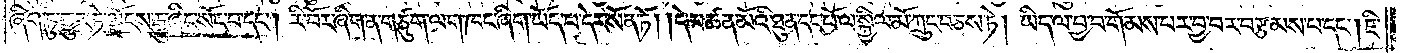ཞིག་ཏུ་གྱུར་ཏེ་ལྗོངས་རྒྱུ་ཞིང་སོང་བ་དང༌། རི་བོར་ཞིག་ན་གཙུག་ལག་ཁང་ཞིག་ཡོད་པ་དེར་སོན་ཏོ། །དེ་མཚན་མོའི་ཐུན་དང་པོ་ལ་སྐྱིལ་མོ་ཀྲུང་བཅས་ཏེ། ཡིད་ལ་བྱ་བ་གོམས་པར་བྱ་བར་བརྩམས་པ་དང༌། ཇི་
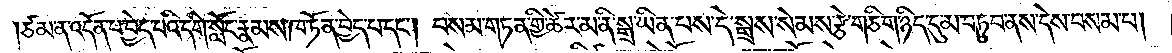ཙམ་ན་འདོན་པ་བྱེད་པའི་དགེ་སློང་རྣམས་ཁ་ཏོན་བྱེད་པ་དང༌། བསམ་གཏན་གྱི་ཚེར་མ་ནི་སྒྲ་ཡིན་པས་དེ་སྒྲས་སེམས་རྩེ་གཅིག་ཉིད་དུ་མ་བཏུབ་ནས་དེས་བསམ་པ།
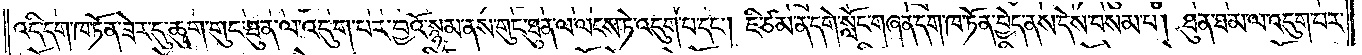འདི་དག་ཁ་ཏོན་ཟེར་དུ་ཆུག་གུང་ཐུན་ལ་འདུག་པར་བྱའོ་སྙམ་ནས་གུང་ཐུན་ལ་ལངས་ཏེ་འདུག་པ་དང༌། ཇི་ཙམ་ན་དགེ་སློང་གཞན་དག་ཁ་ཏོན་བྱེད་ནས་དེས་བསམ་པ། ཐུན་ཐ་མ་ལ་འདུག་པར་
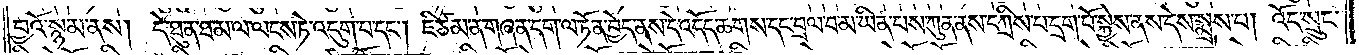བྱའོ་སྙམ་ནས། དེ་ཐུན་ཐ་མ་ལ་ལངས་ཏེ་འདུག་པ་དང༌། ཇི་ཙམ་ན་གཞན་དག་ལ་ཏོན་བྱེད་ནས་དེ་འདོད་ཆགས་དང་བྲལ་བ་མ་ཡིན་པས་ཀུན་ནས་དཀྲིས་པ་དྲག་པོ་སྐྱེས་ནས་དེས་སྨྲས་པ། འོད་སྲུང་
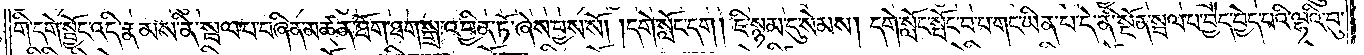གི་དགེ་སྦྱོང་འདི་རྣམས་ནི་སྦལ་པ་བཞིན་མཚན་ཐོག་ཐག་སྒྲ་འབྱིན་ཏོ་ཞེས་བྱས་སོ། །དགེ་སློང་དག། ཇི་སྙམ་དུ་སེམས། དགེ་སློང་སྤོང་བ་པ་གང་ཡིན་པ་དེ་ནི་སྔོན་སྦལ་པ་བྱེད་བྱེད་པའི་ལྷའི་བུ་
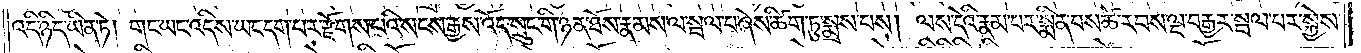འདི་ཉིད་ཡིན་ཏེ། གང་ཡང་འདིས་ཡང་དག་པར་རྫོགས་པའི་སངས་རྒྱས་འོད་སྲུང་གི་ཉན་ཐོས་རྣམས་ལ་སྦལ་པ་ཞེས་ཚིག་ཏུ་སྨྲས་པས། ལས་དེའི་རྣམ་པར་སྨིན་པས་ཚེ་རབས་ལྔ་བརྒྱར་སྦལ་པར་སྐྱེས་
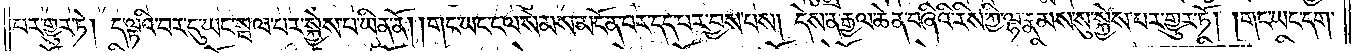པར་གྱུར་ཏེ། ད་ལྟའི་བར་དུ་ཡང་སྦལ་བར་སྐྱེས་པ་ཡིན་ནོ། །གང་ཡང་ང་ལ་སེམས་མངོན་པར་དད་པར་བྱས་པས། དེས་ན་རྒྱལ་ཆེན་བཞིའི་རིས་ཀྱི་ལྷ་རྣམས་སུ་སྐྱེས་པར་གྱུར་ཏོ། །གང་ཡང་དག་
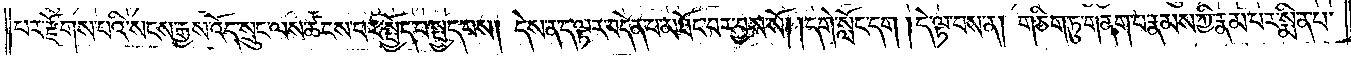པར་རྫོགས་པའི་སངས་རྒྱས་འོད་སྲུང་ལས་ཚངས་པར་སྤྱོད་པ་སྤྱད་པས། དེས་ན་ད་ལྟར་བདེན་པ་མཐོང་བར་བྱས་སོ། །དགེ་སློང་དག །དེ་ལྟ་བས་ན། གཅིག་ཏུ་གནག་པ་རྣམས་ཀྱི་རྣམ་པར་སྨིན་པ་
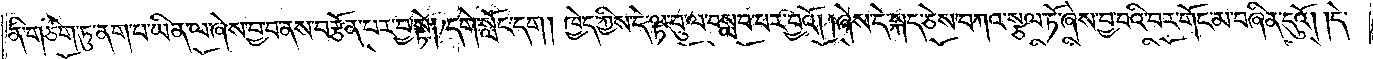ནི་གཅིག་ཏུ་ནག་པ་ཡིན་ལ་ཞེས་བྱ་བ་ནས་བརྩོན་པར་བྱ་སྟེ། དགེ་སློང་དག། ཁྱེད་ཀྱིས་དེ་ལྟ་བུ་ལ་བསླབ་པར་བྱའོ། །ཞེས་དེ་སྐད་ཅེས་བཀའ་སྩལ་ཏོ་ཞེས་བྱ་བའི་བར་གོང་མ་བཞིན་དུའོ། །དེ་
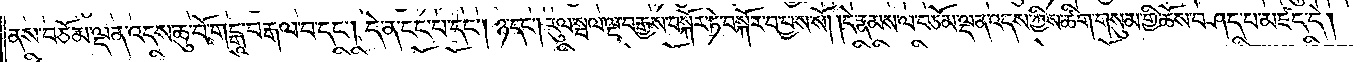ནས་བཅོམ་ལྡན་འདས་ཆུ་བོ་གངྒཱ་བརྒལ་བ་དང༌། དེ་ན་ངང་པ་དང༌། ཉ་དང༌། རུལ་སྦལ་ལྔ་བརྒྱས་བསྐོར་ཏེ་བསྐོར་བ་བྱས་སོ། །དེ་རྣམས་ལ་བཅོམ་ལྡན་འདས་ཀྱིས་ཚིག་གསུམ་གྱི་ཆོས་བཤད་པ་མཛད་དེ།
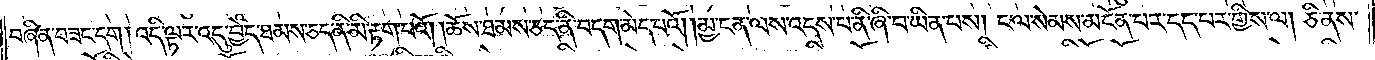བཞིན་བཟང་དག །འདི་ལྟར་འདུ་བྱེད་ཐམས་ཅད་ནི་མི་རྟག་པའོ། །ཆོས་ཐམས་ཅད་ནི་བདག་མེད་པའོ། །མྱ་ངན་ལས་འདས་པ་ནི་ཞི་བ་ཡིན་པས། ང་ལ་སེམས་མངོན་པར་དད་པར་གྱིས་ལ། ཅི་ནས་
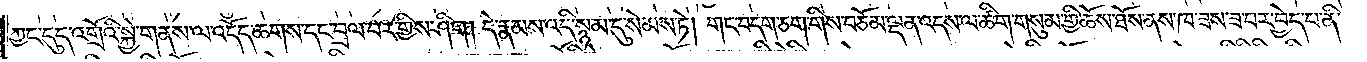ཀྱང་དུད་འགྲོའི་སྐྱེ་གནས་ལ་འདོད་ཆགས་དང་བྲལ་བར་གྱིས་ཤིག །དེ་རྣམས་འདི་སྙམ་དུ་སེམས་ཏེ། གང་བདག་ཅག་གིས་བཅོམ་ལྡན་འདས་ལ་ཚིག་གསུམ་གྱི་ཆོས་ཐོས་ནས་ཁ་ཟས་ཟ་བར་བྱེད་པ་ནི་
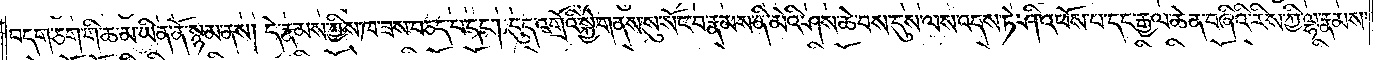བདག་ཅག་གི་ཆ་མ་ཡིན་ནོ་སྙམ་ནས། དེ་རྣམས་ཀྱིས་ཁ་ཟས་བཅད་པ་དང༌། དུད་འགྲོའི་སྐྱེ་གནས་སུ་སོང་བ་རྣམས་ནི་མེའི་ཤས་ཆེ་བས་དུས་ལས་འདས་ཏེ་ཤི་འཕོས་པ་དང་རྒྱལ་ཆེན་བཞིའི་རིས་ཀྱི་ལྷ་རྣམས་
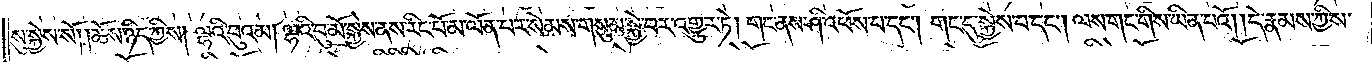སུ་སྐྱེས་སོ། །ཆོས་ཉིད་ཀྱིས། ལྷའི་བུའམ། ལྷའི་བུ་མོ་སྐྱེས་ནས་རིང་པོ་མ་ལོན་པར་སེམས་གསུམ་སྐྱེ་བར་འགྱུར་ཏེ། གང་ནས་ཤི་འཕོས་པ་དང༌། གང་དུ་སྐྱེས་པ་དང༌། ལས་གང་གིས་ཡིན་པའོ། །དེ་རྣམས་ཀྱིས་
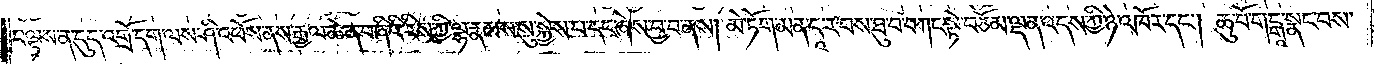བལྟས་ན་དུད་འགྲོ་དག་ལས་ཤི་འཕོས་ནས་རྒྱལ་ཆེན་བཞིའི་རིས་ཀྱི་ལྷ་རྣམས་སུ་སྐྱེས་པ་དང་ཞེས་བྱ་བ་ནས། མེ་ཏོག་མན་དཱ་ར་བས་ཐུ་བ་བཀང་སྟེ་བཅོམ་ལྡན་འདས་ཀྱི་ཉེ་འཁོར་དང༌། ཆུ་བོ་གངྒཱ་སྣང་བས་
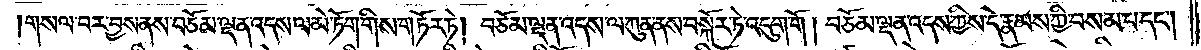།གསལ་བར་བྱས་ནས་བཅོམ་ལྡན་འདས་ལ་མེ་ཏོག་གིས་གཏོར་ཏེ། བཅོམ་ལྡན་འདས་ལ་ཀུན་ནས་བསྐོར་ཏེ་འདུག་གོ །བཅོམ་ལྡན་འདས་ཀྱིས་དེ་རྣམས་ཀྱི་བསམ་པ་དང༌།
